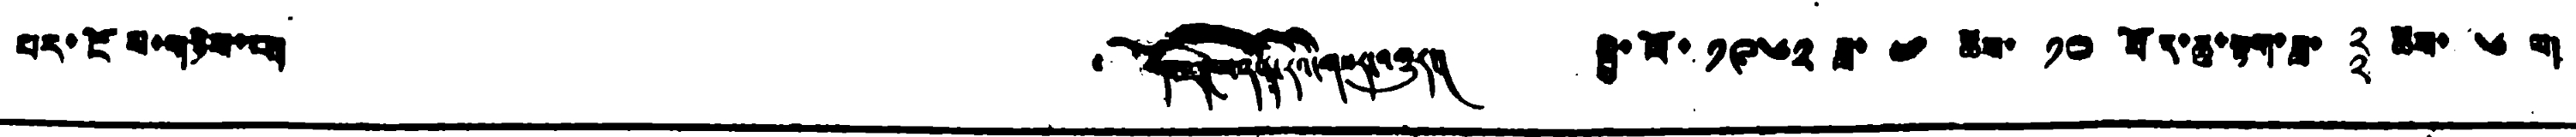པར་ངོས་གཉིས་པ། ༄ བོད་ལྗོངས་ཉིན་རེའི་གསར་འགྱུར། སྤྱི་ལོ་ ༡༩༦༢ ཟླ་ ༤ ཚེས་ ༡༠ བོད་ཆུ་སྟག་ཟླ་ ༢༢ ཚེས་ ༦ ལ།
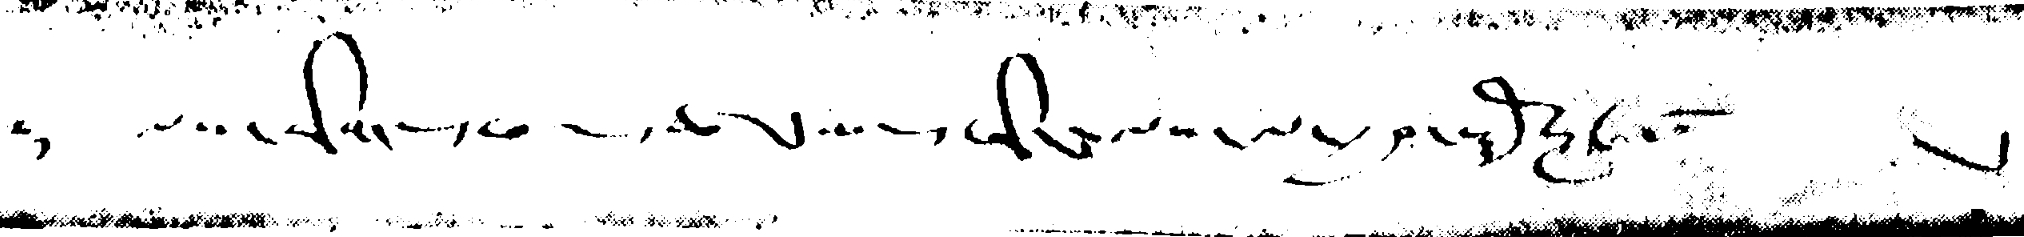༄། ལས་རིགས་ཁག་ཚང་མས་ཞིང་ལས་ལ་རྒྱབ་སྐྱོར་ཞུའོ།
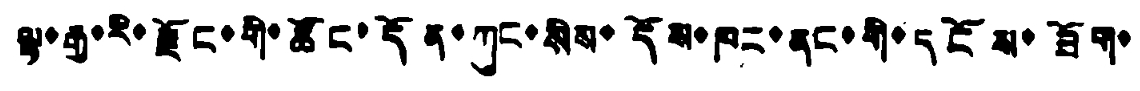ལྷ་རྒྱ་རི་རྫོང་གི་ཚོང་དོན་ཀུང་སིས་དོས་ཁང་ནང་གི་དངོས་ཟོག་
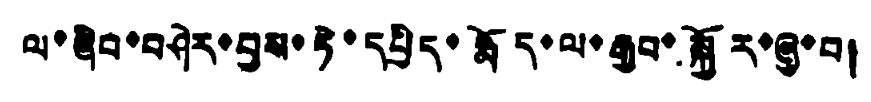ལ་ཞིབ་བཤེར་བྱས་ཏེ་དཔྱིད་རྨོད་ལ་རྒྱབ་སྐྱོར་ཞུ་བ།
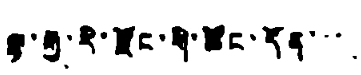ལྟ་རྒྱ་རི་རྫོང་གི་ཚོང་དོན་་་་
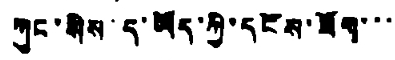ཀུང་སིས་ད་ཡོད་ཀྱི་དངོས་ཟོག་་་
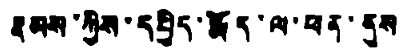རྣམས་ཀྱིས་དཔྱིད་རྨོད་ལ་ཕན་ནུས
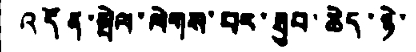འདོན་སྤེལ་ལེགས་པར་ཐུབ་ཆེད་ཉེ་
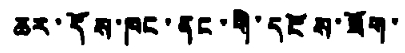ཆར་དོས་ཁང་ནང་གི་དངོས་ཟོག་
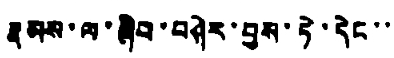རྣམས་ལ་ཞིབ་བཤེར་བྱས་ཏེ་དེང་་
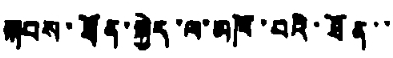སྐབས་ཐོན་སྐྱེད་ལ་མཁོ་བའི་ཐོན་་
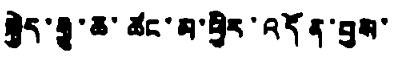སྐྱེད་རྒྱུ་ཆ་ཚང་མ་ཕྱིར་འདོན་བྱས་
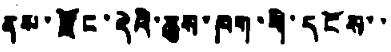ནས་རྫོང་དེའི་ཆུས་ཁག་གི་དངོས་་
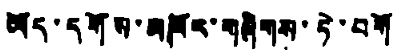ཡོད་དགོས་མཁོར་གཞིགས་ཏེ་བགོ
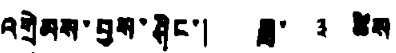འགྲེམས་བྱས་ཤིང་། ཟླ་ ༣ ཚེས
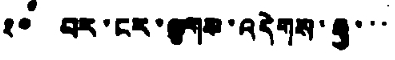༢༠ བར་ངར་ལྕགས་འདེགས་རྒྱ་་་
